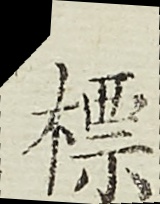標
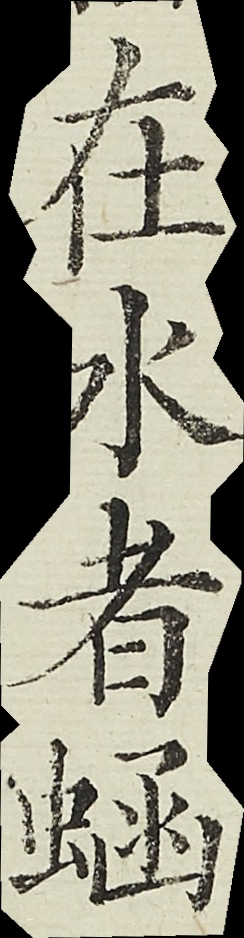在水者蜬
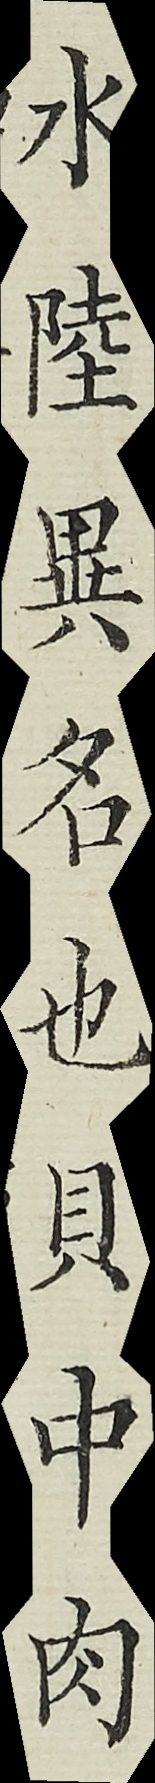水陸異名也貝中肉
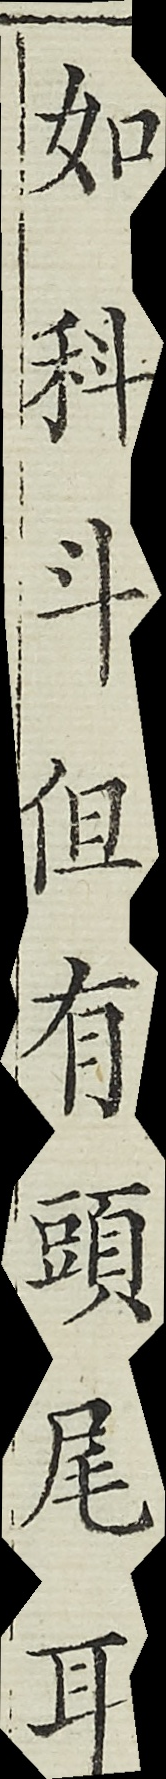如科斗但有頭尾耳
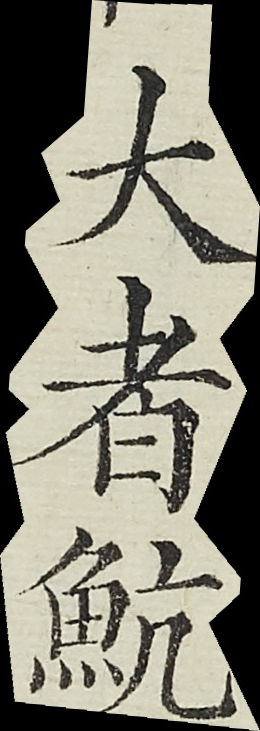大者魧
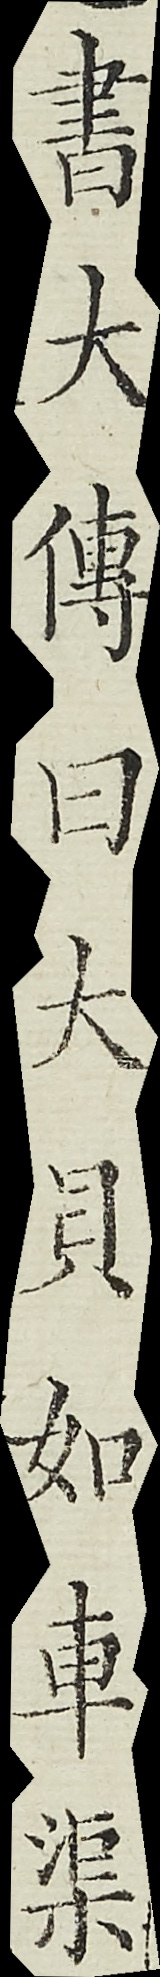書大傳曰大貝如車渠
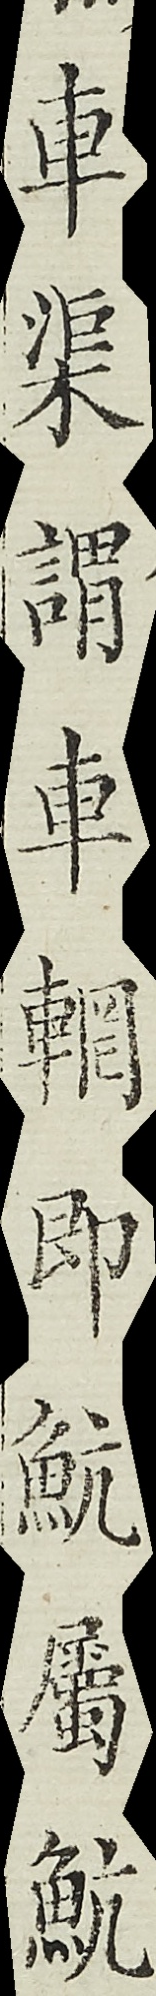車渠謂車輞即魧屬魧
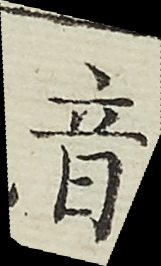音
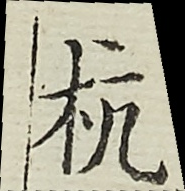杭
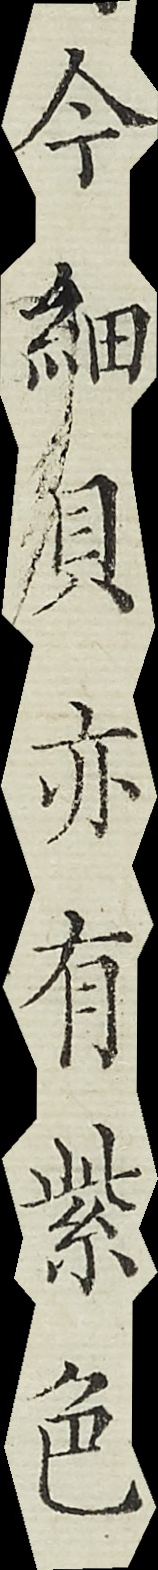今細貝亦有紫色
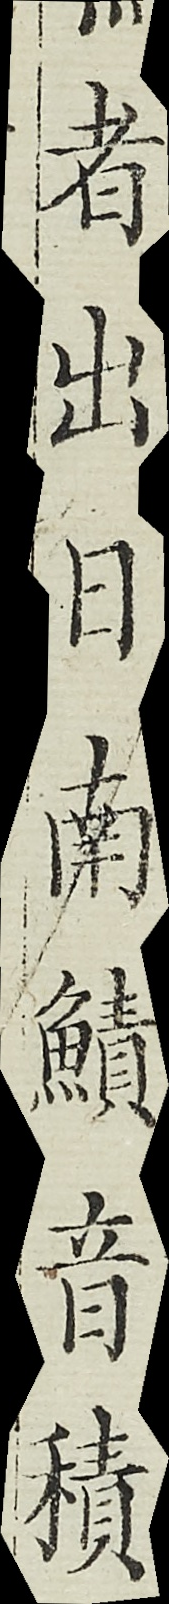者出日南鰿音積
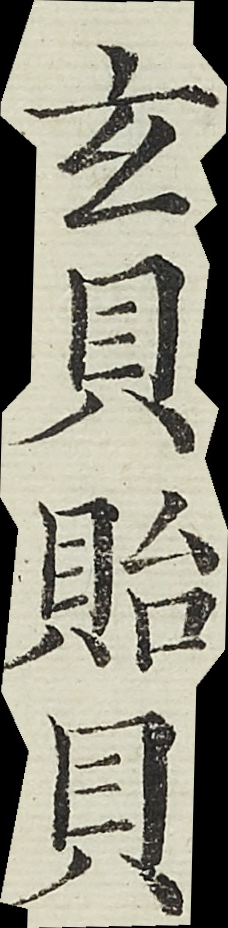玄貝胎貝
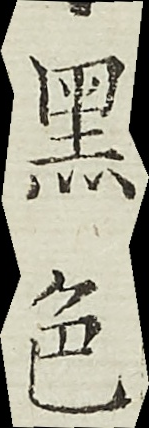黑色
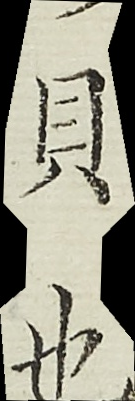貝也
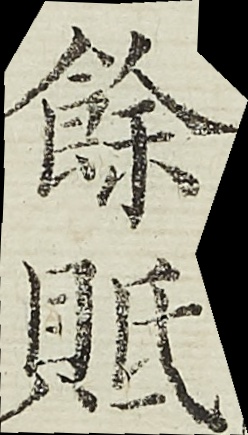餘貾
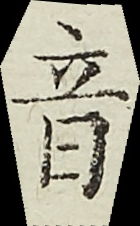音
